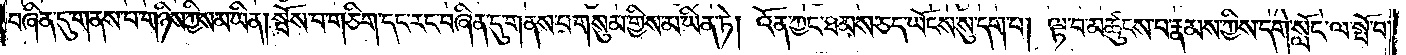བཞིན་དུ་གནས་པ་གཉིས་ཀྱིས་མ་ཡིན། སྤོས་པ་གཅིག་དང་རང་བཞིན་དུ་གནས་པ་གསུམ་གྱིས་མ་ཡིན་ཏེ། འོན་ཀྱང་ཐམས་ཅད་ཡོངས་སུ་དག་པ། ལྟ་བ་མཚུངས་པ་རྣམས་ཀྱིས་དགེ་སློང་ལ་སྤོ་བ་
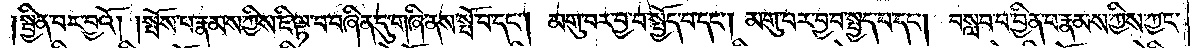སྦྱིན་པར་བྱའོ། །སྤོས་པ་རྣམས་ཀྱིས་ཇི་ལྟ་བ་བཞིན་དུ་གཞི་ནས་སྤོ་བ་དང༌། མགུ་བར་བྱ་བ་སྤྱོད་པ་དང༌། མགུ་བར་བྱ་བ་སྤྱད་པ་དང༌། བསླབ་པ་བྱིན་པ་རྣམས་ཀྱིས་ཀྱང་
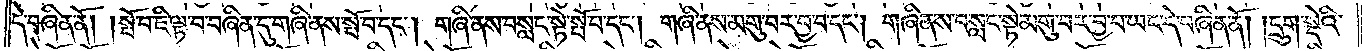དེ་བཞིན་ནོ། །སྤོ་བ་ཇི་ལྟ་བ་བཞིན་དུ་གཞི་ནས་སྤོ་བ་དང༌། གཞི་ནས་བསླང་སྟེ་སྤོ་བ་དང༌། གཞི་ནས་མགུ་བར་བྱ་བ་དང༌། གཞི་ནས་བསླང་སྟེ་མགུ་བར་བྱ་བ་ཡང་དེ་བཞིན་ནོ། །དྲུག་སྡེའི་
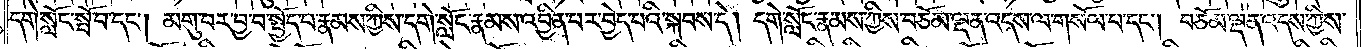དགེ་སློང་སྤོ་བ་དང༌། མགུ་བར་བྱ་བ་སྤྱོད་པ་རྣམས་ཀྱིས་དགེ་སློང་རྣམས་འབྱིན་པར་བྱེད་པའི་སྐབས་དེ། དགེ་སློང་རྣམས་ཀྱིས་བཅོམ་ལྡན་འདས་ལ་གསོལ་བ་དང༌། བཅོམ་ལྡན་འདས་ཀྱིས་
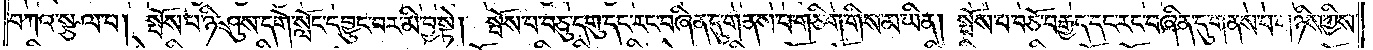བཀའ་སྩལ་པ། སྤོས་པ་ཉི་ཤུས་དགེ་སློང་དབྱུང་བར་མི་བྱ་སྟེ། སྤོས་པ་བཅུ་དགུ་དང་རང་བཞིན་དུ་གནས་པ་གཅིག་གིས་མ་ཡིན། །སྤོས་པ་བཅོ་བརྒྱྱད་དང་རང་བཞིན་དུ་གནས་པ་གཉིས་ཀྱིས་
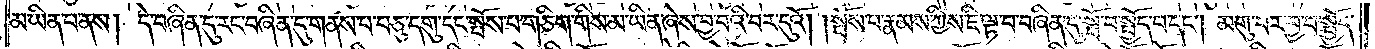མ་ཡིན་པ་ནས། དེ་བཞིན་དུ་རང་བཞིན་དུ་གནས་པ་བཅུ་དགུ་དང་སྤོས་པ་གཅིག་གིས་མ་ཡིན་ཞེས་བྱ་བའི་བར་དུའོ། སྤོས་པ་རྣམས་ཀྱིས་ཇི་ལྟ་བ་བཞིན་དུ་སྤོ་བ་སྤྱོད་པ་དང༌། མགུ་བར་བྱ་བ་སྤྱོད་
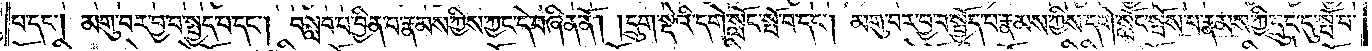པ་དང༌། མགུ་བར་བྱ་བ་སྤྱད་པ་དང༌། བསླབ་པ་བྱིན་པ་རྣམས་ཀྱིས་ཀྱང་དེ་བཞིན་ནོ། །དྲུག་སྡེའི་དགེ་སློང་སྤོ་བ་དང༌། མགུ་བར་བྱ་བ་སྤྱོད་པ་རྣམས་ཀྱིས་དགེ་སློང་སྤོས་པ་རྣམས་ཀྱི་དྲུང་དུ་སྤོ་བ་
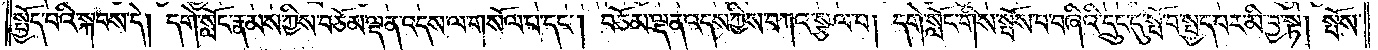སྤྱོད་པའི་སྐབས་དེ། དགེ་སློང་རྣམས་ཀྱིས་བཅོམ་ལྡན་འདས་ལ་གསོལ་བ་དང༌། བཅོམ་ལྡན་འདས་ཀྱིས་བཀའ་སྩལ་པ། དགེ་སློང་གིས་སྤོས་པ་བཞིའི་དྲུང་དུ་སྤོ་བ་སྤྱད་པར་མི་བྱ་སྟེ། སྤོས་
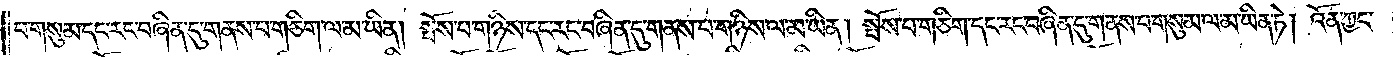པ་གསུམ་དང་རང་བཞིན་དུ་གནས་པ་གཅིག་ལ་མ་ཡི། སྤོས་པ་གཉིས་དང་རང་བཞིན་དུག་ནས་པ་གཉིས་ལ་མ་ཡིན། སྤོས་པ་གཅིག་དང་རང་བཞིན་དུ་གནས་པ་གསུམ་ལ་མ་ཡིན་ཏེ། འོན་ཀྱང་
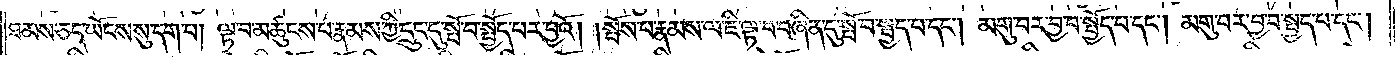ཐམས་ཅད་ཡོངས་སུ་དག་པ། ལྟ་བ་མཚུངས་པ་རྣམས་ཀྱིས་དྲུང་དུ་སྤོ་བ་སྤྱོད་པར་བྱའོ། །སྤོས་པ་རྣམས་ལ་ཇི་ལྟ་བ་བཞིན་དུ་སྤོ་བ་སྤྱད་པ་དང༌། མགུ་བར་བྱ་བ་སྤྱོད་པ་དང༌། མགུ་བར་བྱ་བ་སྤྱད་པ་དང༌།
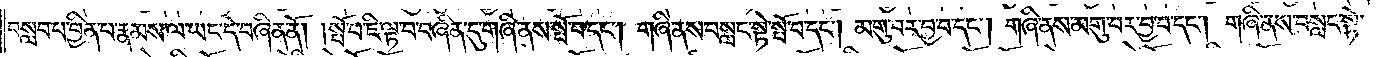བསླབ་པ་བྱིན་པ་རྣམས་ལ་ཡང་དེ་བཞིན་ནོ། །སྤོ་བ་ཇི་ལྟ་བ་བཞིན་དུ་གཞི་ནས་སྤོ་བ་དང༌། གཞི་ནས་བསླང་སྟེ་སྤོ་བ་དང༌། མགུ་བར་བྱ་བ་དང༌། གཞི་ནས་མགུ་བར་བྱ་བ་དང༌། གཞི་ནས་བསླང་སྟེ་
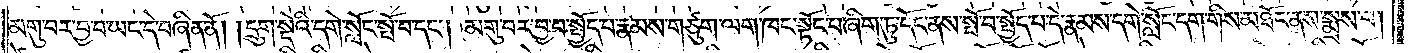མགུ་བར་བྱ་བ་ཡང་དེ་བཞིན་ནོ། །དྲུག་སྡེའི་དགེ་སློང་སྤོ་བ་དང༌། མགུ་བར་བྱ་བ་སྤྱད་པ་རྣམས་གཙུག་ལག་ཁང་སྟོང་པ་ཞིག་ཏུ་དོང་ནས་སྤོ་བ་སྤྱད་པ་དེ་རྣམས་དགེ་སློང་དག་གིས་མཐོང་ནས་སྨྲས་པ།
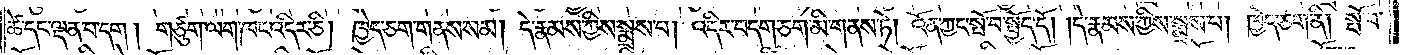ཚེ་དང་ལྡན་པ་དག །གཙུག་ལག་ཁང་འདིར་ཅི། ཁྱེད་ཅག་གནས་སམ། དེ་རྣམས་ཀྱིས་སྨྲས་པ། འདིར་བདག་ཅག་མི་གནས་ཏེ། འོན་ཀྱང་སྤོ་བ་སྤྱོད་དོ། །དེ་རྣམས་ཀྱིས་སྨྲས་པ། ཁྱེད་ཅག་ནི། སྤོ་བ་
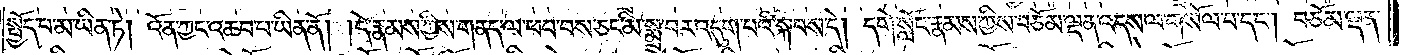སྤྱོད་པ་མ་ཡིན་ཏེ། འོན་ཀྱང་འཆབ་པ་ཡིན་ནོ། །དེ་རྣམས་ཀྱིས་གནད་ལ་ཕབ་པས་ཅང་མི་སྨྲ་བར་འདུག་པའི་སྐབས་དེ། དགེ་སློང་རྣམས་ཀྱིས་བཅོམ་ལྡན་འདས་ལ་གསོལ་བ་དང༌། བཅོམ་ལྡན་
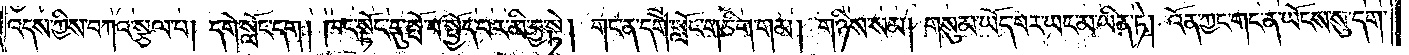འདས་ཀྱིས་བཀའ་སྩལ་པ། དགེ་སློང་དག །ཁང་སྟོང་དུ་སྤོ་བ་སྤྱོད་པར་མི་བྱ་སྟེ། གང་ན་དགེ་སློང་གཅིག་གམ། གཉིས་སམ། གསུམ་ཡོད་པར་ཡང་མ་ཡིན་ཏེ། འོན་ཀྱང་གང་ན་ཡོངས་སུ་དག་
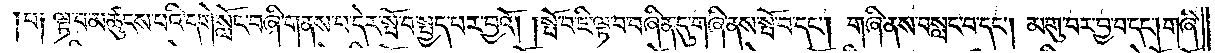པ། ལྟ་བ་མཚུངས་པའི་དགེ་སློང་བཞི་གནས་པ་དེ་སྤོ་བ་སྤྱད་པར་བྱའོ། །སྤོ་བ་ཇི་ལྟ་བ་བཞིན་དུ་གཞི་ནས་སྤོ་བ་དང༌། གཞི་ནས་བསླང་བ་དང༌། མགུ་བར་བྱ་བ་དང༌། གཞི་
